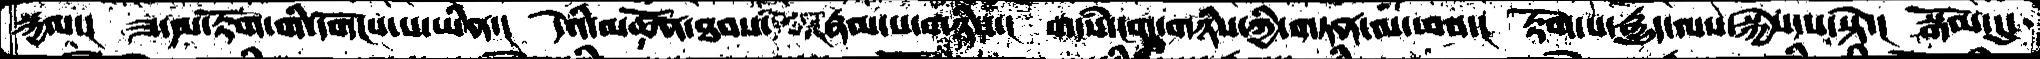སྐྱལ་།  ཟ་མ་རྟོག་གི་དགོངས་པ་ཡིན་།  དེའི་མཚོན་ཐབས་    རྣམ་པ་གཉིས་།  གདཾས་ངག་གཉིས་ཀྱི་གཏན་ལ་ཕབ་།  རྟོག་པ་རྒྱུད་ལས་སྐྱེས་པ་སྟེ་།  སྒོམ་དུ་
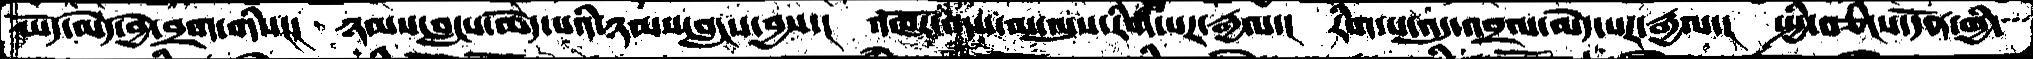ཡོད་མེད་བྱེ་བྲག་གིས།།།  ཉམས་བླངས་མེད་པའི་ཉམས་བླངས་བྱས་།  འཁོར་འདས་མ་ལུས་རིག་པར་རྒྱལ་།  རིག་པ་འདུ་འབྲལ་མེད་པར་རྒྱལ་།  སྤྱི་བཅིངས་དོན་གྱི་
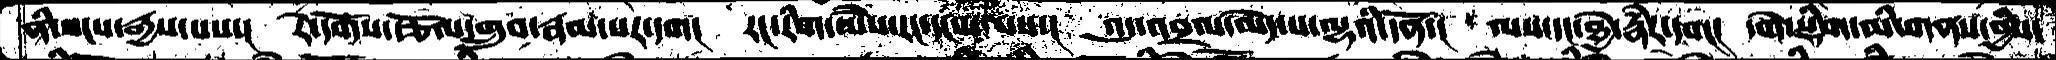ནི་སངས་རྒྱས་པས་།  རེ་དོགས་རྩོལ་གྲུབ་རྣམ་པར་དག།  རང་རིག་ཡཻས་རང་དངས་ལས་།  འདུ་འབྲལ་མེད་པ་ལྷའི་དོན་།  ལས་དང་ཐྱེ་རྣཾར་དག།  དགེ་སྡིག་མི་གནས་བྱིས་
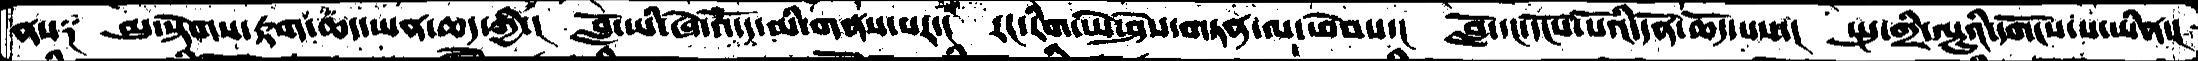ནས༑  མུ་སྟེགས་རྟག་ཆད་ཡན་ཆད་གྱི་།  བློ་ཡི་ཞེ་འདོད་མི་གནས་པར་།  རང་རིག་ཡེ་ཤེས་གཏན་ལ་ཕེབས་།  བློ་དང་དངོས་པོའི་དོན་ཆོད་པས་།  སྤུ་གྲི་ལྟུའི་དགོངས་པ་ཡིན་།
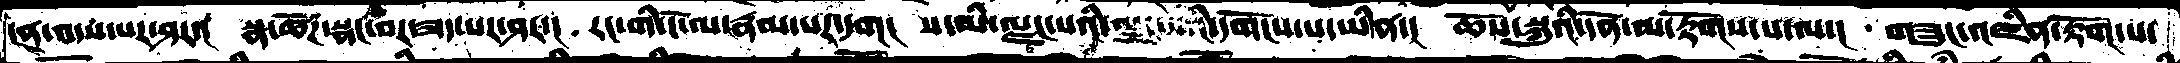ངན་འདས་པར་ཤར་།  སྣ་ཚོཌ་སྣང་བར་ཟད་པར་ཤར་།  རང་གི་ངོ་ལ་རྣམ་པར་དག།  ས་ལི་ལྗང་པའི་     དགོངས་པ་ཡིན་།  ཆོས་སྐུའི་དོན་མ་རྟོགས་པ་ལ་།  གཟུང་འཛིན་རྟོག་པ་
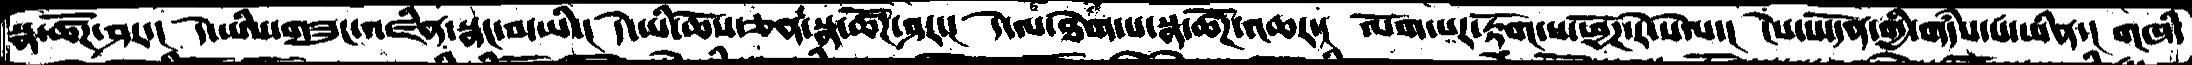སྣ་ཚོཌཤར་།  དེ་ཡིས་གཟུང་འཛིན་སྣང་བ་ཡི་།  དེ་ཡི་ཆོས་ཅན་སྣ་ཚོཌ་ཤར་།  དེ་ལ་ཐེག་པ་སྣ་ཚོཌ་འཆར་།  ལོག་པར་རྟོག་པ་ཕྱོཌ་རེ་སེལ་།  ངེས་པ་དོན་གྱི་གདཾས་པ་ཡིན་།  གཞི་
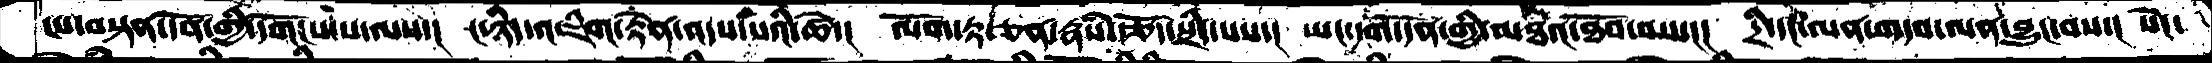ངས་བསྟན་དོན་གྱི་དགོངས་པ་ལས་།  ང་ཉིད་འཇིག་རྟེན་འདས་པའི་ཚེ་།  ལོག་རྟ་ཅན་རྣཾས་རྩོད་སྲིད་པས་།  ཡང་དག་དོན་གྱི་མཐའ་ཐོབ་བས་།།  དྲི་དང་ལན་གདབ་ལན་བྱུང་བས་།  སེང་
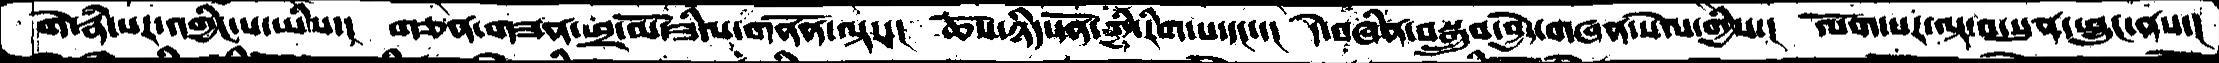གེ་རྣཾ་པར་འགྱིང་པ་ཡིས་།  གཅན་གཟན་ཕྲ་མོ་ཟིལ་གནོན་ལྟར་།  ཆོས་ཉིད་དོན་གྱི་རིག་པ་དང་་།  དེ་བཞིན་བསྒྲུབ་བྱེད་གཞན་སེལ་གྱིས་།  ལོག་པར་ལྟ་བ་སུན་བྱུང་ནས་།
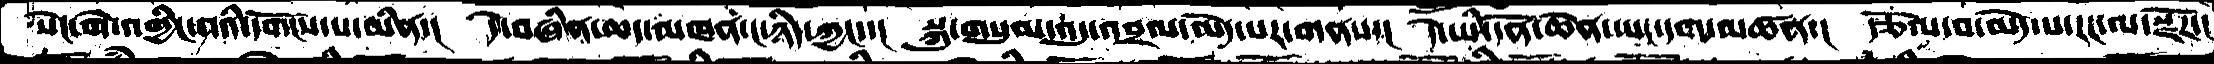སེང་གེ་འགྱིང་བའི་དགོངས་པ་ཡིན་།  དེ་བཞིན་ཆད་མཁན་ང་ཉིད་ཀྱང་་།  སྐུ་གསུམ་འདུ་འབྲལ་མེད་པར་གནས་།  དེ་ཡི་དོན་ཆེན་ཡང་དག་མཚན་།  རྩོལ་བ་མེད་པ་རང་ལ་སྫོཌ་།
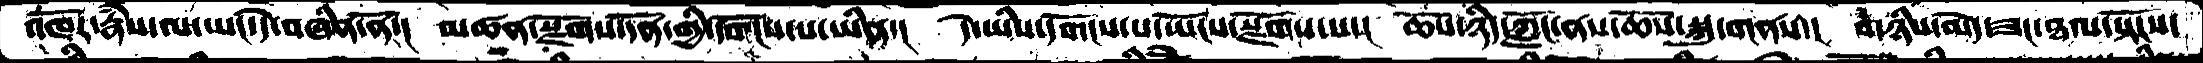འཁོར་རྣཾས་ལ་ཡང་དེ་བཞིན་ནོ་།  མཚན་སྫོགས་དོན་གྱི་དགོངས་པ་ཡིན་།  དེ་ཡིས་དགོངས་པ་ཡོངས་སྫོགས་པ་།  ཆོས་ཉིད་ཀློང་ནས་ཆོས་སྐུ་གནས་།  གཉིས་མེད་ཟང་ཐལ་སྟོངས་
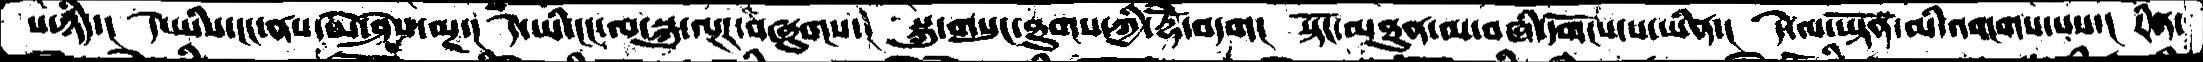པ་ཉིད་།  དེ་ཡིས་ངང་ནས་ཡེ་ཤེས་ལྔ་།  དེ་ཡི་ངང་ལ་སྐུ་ལྔར་བཞུགས་།  སྐུ་གསུང་ཐུགས་ཀྱི་རྡོེ་བདག།  སྟོང་མཐུན་མ་བཞི་དགོངས་པ་ཡིན་།  དེ་ལ་ཡྟོན་མི་འགགས་པས་།  རིན་
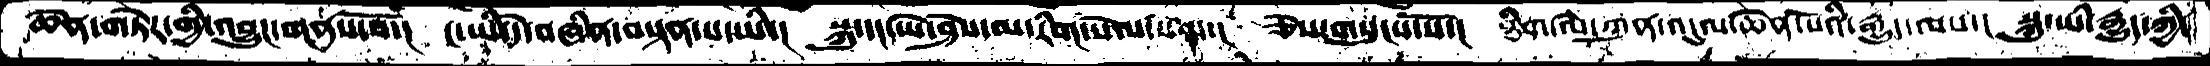ཆེན་གཏེར་གྱི་འབྱུང་གནས་སོ་།  ང་ཡི་དེ་བཞིན་བསྟན་པ་ཡི་།  སྐུ་དང་ཡེ་ཤེས་མ་རིག་སེལ་། ཅེས་གསུངས་སོ་།  ཐིག་ལེ་ཀུན་འདུལ་ཆེན་པོའི་རྒྱུད་ལས་།  སྐུ་ཡི་རྒྱུད་ཀྱི་
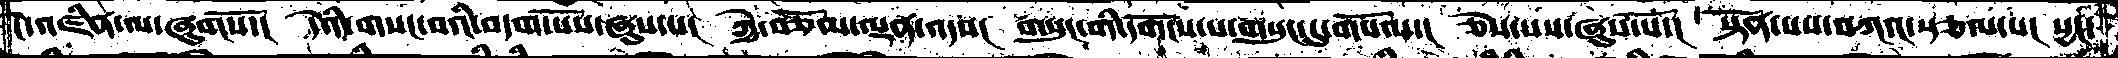ངེ་འཛིན་ལ་ཞུགསོ་།  དེའི་གསང་བའི་བདག་པོས་ཞུས་པ།  ཀྱེ་བཅོམ་ལྡན་འདས་། གསུང་གི་དགོངས་པ་གསུང་དུ་གསོལ་།  ཅེས་པས་ཞུས་སོ་།  སྟོན་པས་བཀའ་སྩལ་པ་། པྱང་
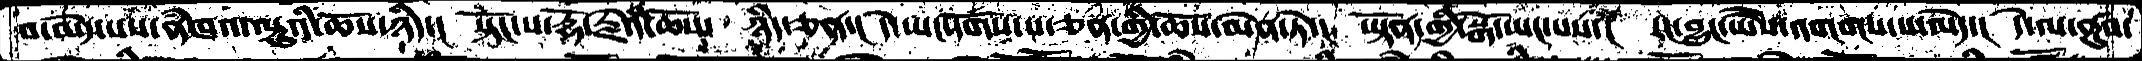བ་མེད་པས་ནཾཁའ་ལྟུའི་ཆོས་ཉིད་།  སྟོང་པ་རྡོ་རྗེའི་ཆོས་  ཉིད་ཅན་།  དེ་ཡང་དོགས་པ་ཅན་གྱི་ཆོས་མེན་ཏེ་།  ཡྟོན་གྱི་སྒོ་ཡང་པས་།  རང་བྱུང་ཡཻས་འགགས་པ་མེད་།  དེ་ལ་ནུབ་
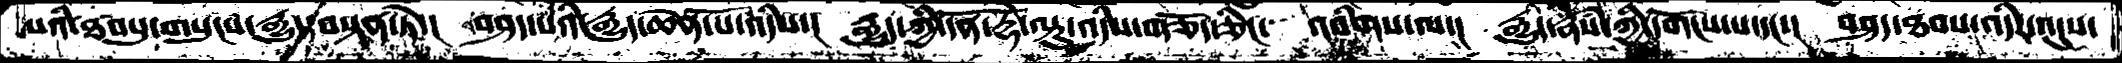པའི་ཐབསུ་གསུངས་རྒྱུད་བསྟན་ཏེ་།  བཤད་པའི་རྒྱུད་ཆེན་པོ་འདིས་།  རྒྱུད་ཀྱི་དོན་རྡོེ་ལྟུ་འདིས་གཅོད་ཅིང་  འབིགས་ལ་།  རྒྱུད་རྣཾས་ཀྱི་དགོངས་པ་དང་།  བཤད་ཐབས་འདིར་འདུས་
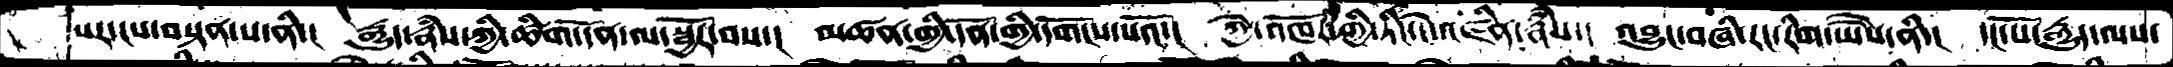པར་ངས་བསྟན་པ་ནི་།  རྒྱུད་རྣཾས་ཀྱི་ཚིག་དོན་ལ་སྦྱོར་བས་།  མཚན་གྱི་དོན་གྱི་དགོངས་པའོ་།  ཀྱེ་འཁོར་གྱི་་ཏིང་འཛིན་རྣཾས་།  འབྱུང་བཞི་རང་རིག་ཡཻས་ནི་།  དང་པོ་རྒྱུད་ལས་
